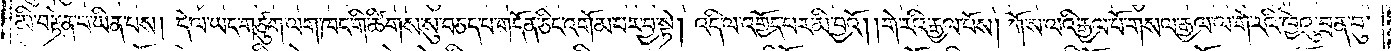མི་བརྟེན་པ་ཡིན་པས། དེ་ལ་ཡང་གཙུག་ལག་ཁང་གི་ཚིགས་སུ་བཅད་པ་གདོན་ཅིང་འགོམ་པར་བྱ་སྟེ། འདི་ལ་འགྱོད་པར་མི་བྱའོ། །གེ་རའི་རྒྱལ་པོས། ཀོ་ས་ལའི་རྒྱལ་པོ་གསལ་རྒྱལ་ལ་གེ་རའི་ཁྱེའུ་བྲན་བུ་
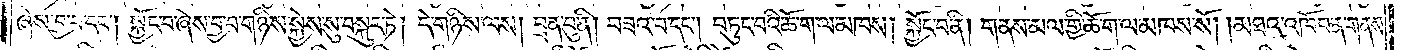ཞེས་བྱ་བ་དང༌། སྐྱོང་བ་ཞེས་བྱ་བ་གཉིས་སྐྱེས་སུ་བསྐུར་ཏེ། དེ་གཉིས་ལས། བྲན་བུ་ནི། བཟའ་བ་དང༌། བཏུང་བའི་ཆོ་ག་ལ་མཁས། སྐྱོང་བ་ནི། གནས་མལ་གྱི་ཆོ་ག་ལ་མཁས་སོ། །མཐའ་འཁོབ་ན་གནས་
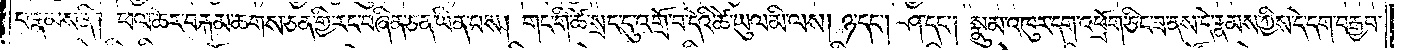པ་རྣམས་ནི། ཕལ་ཆེར་བརྐམ་ཆགས་ཅན་གྱི་རང་བཞིན་ཅན་ཡིན་པས། གང་གི་ཚེ་སྲང་དུ་འགྲོ་བ་དེའི་ཚེ་ཡུལ་མི་ལས། ཉ་དང༌། ཤ་དང༌། སྣུམ་འཁུར་དག་འཕྲོག་ཅིང་ཟ་ནས་དེ་རྣམས་ཀྱིས་དེ་དག་བརྒྱབ་
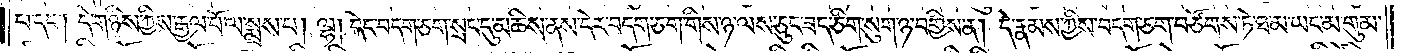པ་དང༌། དེ་གཉིས་ཀྱིས་རྒྱལ་པོ་ལ་སྨྲས་པ། ལྷ། དེང་བདག་ཅག་སྲང་དུ་མཆིས་ནས་དེར་བདག་ཅག་གིས་ཉ་ལས་ཅུང་ཟད་ཅིག་སུག་ཉ་བགྱིས་ན། དེ་རྣམས་ཀྱིས་བདག་ཅག་བཙོགས་ཏེ་ཐ་མ་ཡང་མ་གུམ་
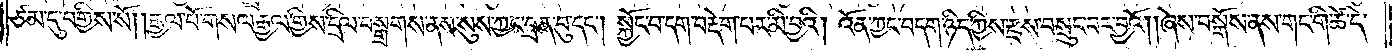ཙམ་དུ་བགྱིས་སོ། །རྒྱལ་པོ་གསལ་རྒྱལ་གྱིས་དྲིལ་བསྒྲགས་ནས་སུས་ཀྱང་བྲན་བུ་དང༌། སྐྱོང་བ་དག་བརྡེག་པར་མི་བྱའི། འོན་ཀྱང་བདག་ཉིད་ཀྱིས་རྫས་བསྲུང་བར་བྱའོ། །ཞེས་བསྒོས་ནས་གང་གི་ཚེ་དེ་
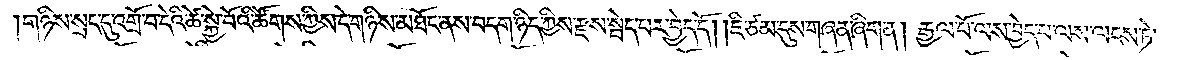གཉིས་སྲང་དུ་འགྲོ་བ་དེའི་ཚེ་སྐྱེ་བོའི་ཚོགས་ཀྱིས་དེ་གཉིས་མཐོང་ནས་བདག་ཉིད་ཀྱིས་རྫས་སྦེད་པར་བྱེད་དོ། །ཇི་ཙམ་དུས་གཞན་ཞིག་ན། རྒྱལ་པོ་ལས་བྱེད་པ་ལས་ལངས་ཏེ་
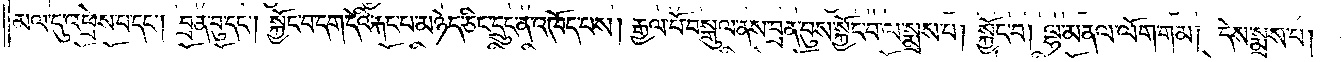མལ་དུ་འཕྲེས་པ་དང༌། བྲན་བུ་དང༌། སྐྱོང་བ་དག་དེའི་རྐང་པ་མཉེད་ཅིང་དྲུང་ན་འཁོད་པས། རྒྱལ་པོ་བསྒུལ་ནས་བྲན་བུས་སྐྱོང་བ་ལ་སྨྲས་པ། སྐྱོང་བ། ལྷ་མནལ་ལོག་གམ། དེས་སྨྲས་པ།
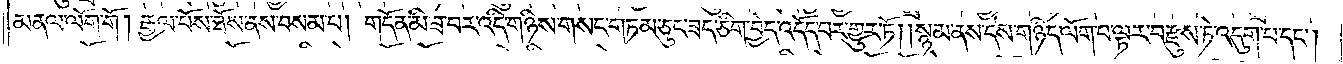མནལ་ལོག་གོ །རྒྱལ་པོས་ཐོས་ནས་བསམ་པ། གདོན་མི་ཟ་བར་འདི་གཉིས་གསང་གཏམ་ཅུང་ཟད་ཅིག་བྱེད་འདོད་པར་གྱུར་ཏོ། །སྙམ་ནས་དེས་གཉིད་ལོག་པ་ལྟར་བརྫུས་ཏེ་འདུག་པ་དང༌།
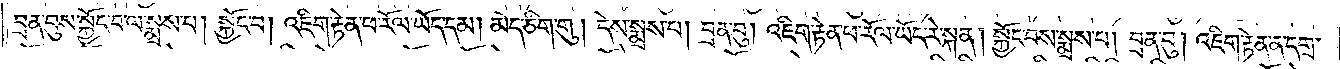བྲན་བུས་སྐྱོང་བ་ལ་སྨྲས་པ། སྐྱོང་བ། འཇིག་རྟེན་ཕ་རོལ་ཡོད་དམ། མེད་ཅིག་གུ་།དེས་སྨྲས་པ། བྲན་བུ། འཇིག་རྟེན་ཕ་རོལ་ཡོད་རེ་སྐན། སྐྱོང་བས་སྨྲས་པ། བྲན་བུ། འཇིག་རྟེན་ན་དགྲ་
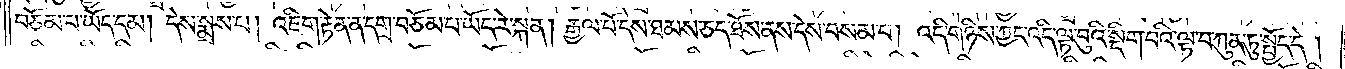བཅོམ་པ་ཡོད་དམ། དེས་སྨྲས་པ། འཇིག་རྟེན་ན་དགྲ་བཅོམ་པ་ཡོད་རེ་སྐན། རྒྱལ་པོ་དེས་ཐམས་ཅད་ཐོས་ནས་དེས་བསམ་པ། འདི་གཉིས་ཀྱང་འདི་ལྟ་བུའི་སྡིག་པའི་ལྟ་བ་ཀུན་ཏུ་སྤྱོད་དེ།
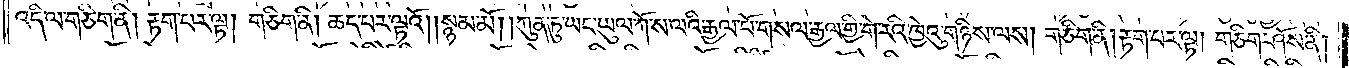འདི་ལ་གཅིག་ནི། རྟག་པར་ལྟ། གཅིག་ནི། ཆད་པར་ལྟའོ། །སྙམ་མོ། །ཀུན་ཏུ་ཡང་ཡུལ་ཀོ་ས་ལའི་རྒྱལ་པོ་གསལ་རྒྱལ་གྱི་གེ་རའི་ཁྱེའུ་གཉིས་ལས། གཅིག་ནི། རྟག་པར་ལྟ། གཅིག་ཤོས་ནི།
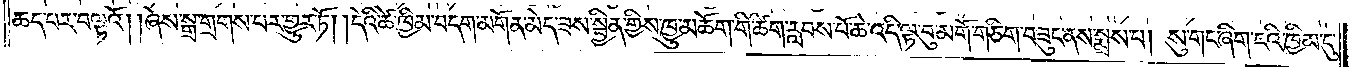ཆད་པར་བལྟའོ། །ཞེས་སྒྲ་གྲགས་པར་གྱུར་ཏོ། །དེའི་ཚེ་ཁྱིམ་བདག་མགོན་མེད་ཟས་སྦྱིན་གྱིས་ཁྱུ་མཆོག་གི་ཚིག་རླབས་པོ་ཆེ་འདི་ལྟ་བུ་མགོ་གཅིག་བཟུང་ནས་སྨྲས་པ། སུ་གང་ཞིག་ངའི་ཁྱིམ་དུ་
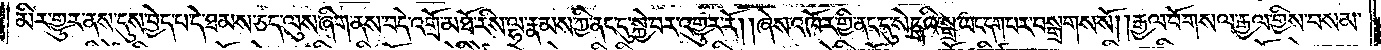མིར་གྱུར་ནས་དུས་བྱེད་པ་དེ་ཐམས་ཅད་ལུས་ཞིག་ནས་བདེ་འགྲོ་མཐོ་རིས་ལྷ་རྣམས་ཀྱི་ནང་དུ་སྐྱེ་བར་འགྱུར་རོ། །ཞེས་འཁོར་གྱི་ནང་དུ་སེངྒའི་སྒྲ་ཡང་དག་པར་བསྒྲགས་སོ། །རྒྱལ་པོ་གསལ་རྒྱལ་གྱིས་བསམ་
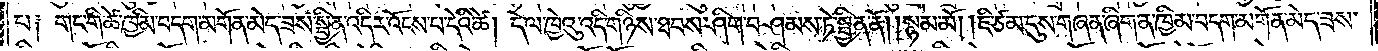པ༑ གང་གི་ཚེ་ཁྱིམ་བདག་མགོན་མེད་ཟས་སྦྱིན་འདིར་འོངས་པ་དེའི་ཚེ། དེ་ལ་ཁྱེའུ་འདི་གཉིས་ཐབས་ཤིག་བཤམས་ཏེ་སྦྱིན་ནོ། །སྙམ་མོ། །ཇི་ཙམ་དུས་གཞན་ཞིག་ན་ཁྱིམ་བདག་མགོན་མེད་ཟས་
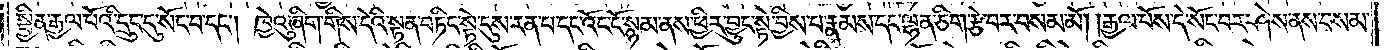སྦྱིན་རྒྱལ་པོའི་དྲུང་དུ་སོང་བ་དང༌། ཁྱེའུ་ཞིག་གིས་དེའི་སྟན་བཏིང་སྟེ་དུས་རན་པ་དང་འོང་ངོ་སྙམ་ནས་ཕྱིར་བྱུང་སྟེ་བྱིས་པ་རྣམས་དང་ལྷན་ཅིག་རྩེ་བར་བསམ་མོ། །རྒྱལ་པོས་དེ་སོང་བར་ཤེས་ནས་བསམ་
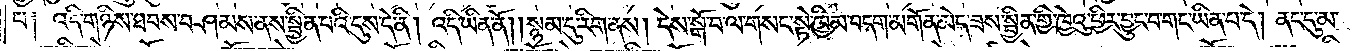པ༑ འདི་གཉིས་ཐབས་བཤམས་ནས་སྦྱིན་པའི་དུས་དེ་ནི། འདི་ཡིན་ནོ། །སྙམ་དུ་རིག་ནས། དེས་སྒོ་བ་ལ་གསང་སྟེ་ཁྱིམ་བདག་མགོན་མེད་ཟས་སྦྱིན་གྱི་ཁྱེའུ་ཕྱིར་བྱུང་བ་གང་ཡིན་པ་དེ། ནང་དུ་མ་
